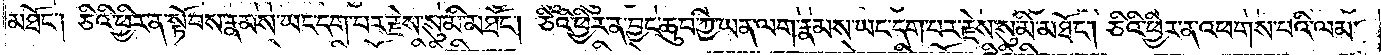མཐོང༌། ཅིའི་ཕྱིར་ན་སྟོབས་རྣམས་ཡང་དག་པར་རྗེས་སུ་མི་མཐོང༌། ཅིའི་ཕྱིར་ན་བྱང་ཆུབ་ཀྱི་ཡན་ལག་རྣམས་ཡང་དག་པར་རྗེས་སུ་མི་མཐོང༌། ཅིའི་ཕྱིར་ན་འཕགས་པའི་ལམ་
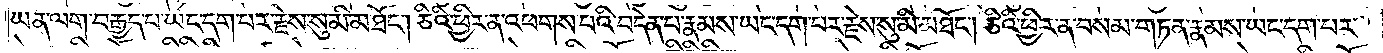ཡན་ལག་བརྒྱད་པ་ཡང་དག་པར་རྗེས་སུ་མི་མཐོང༌། ཅིའི་ཕྱིར་ན་འཕགས་པའི་བདེན་པ་རྣམས་ཡང་དག་པར་རྗེས་སུ་མི་མཐོང༌། ཅིའི་ཕྱིར་ན་བསམ་གཏན་རྣམས་ཡང་དག་པར་
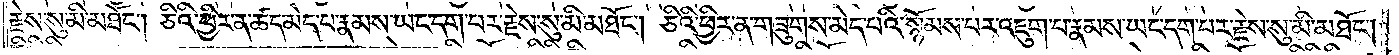རྗེས་སུ་མི་མཐོང༌། ཅིའི་ཕྱིར་ན་ཚད་མེད་པ་རྣམས་ཡང་དག་པར་རྗེས་སུ་མི་མཐོང༌། ཅིའི་ཕྱིར་ན་གཟུགས་མེད་པའི་སྙོམས་པར་འཇུག་པ་རྣམས་ཡང་དག་པར་རྗེས་སུ་མི་མཐོང༌།
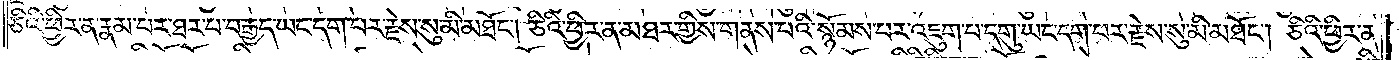ཅིའི་ཕྱིར་ན་རྣམ་པར་ཐར་པ་བརྒྱད་ཡང་དག་པར་རྗེས་སུ་མི་མཐོང༌། ཅིའི་ཕྱིར་ན་མཐར་གྱིས་གནས་པའི་སྙོམས་པར་འཇུག་པ་དགུ་ཡང་དག་པར་རྗེས་སུ་མི་མཐོང༌། ཅིའི་ཕྱིར་ན་
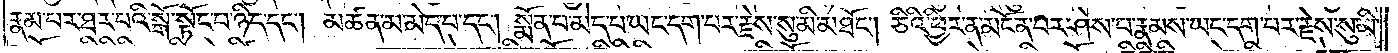རྣམ་པར་ཐར་པའི་སྒོ་སྟོང་པ་ཉིད་དང༌། མཚན་མ་མེད་པ་དང༌། སྨོན་པ་མེད་པ་ཡང་དག་པར་རྗེས་སུ་མི་མཐོང༌། ཅིའི་ཕྱིར་ན་མངོན་པར་ཤེས་པ་རྣམས་ཡང་དག་པར་རྗེས་སུ་མི་
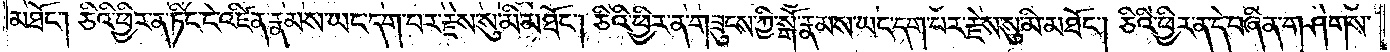མཐོང༌། ཅིའི་ཕྱིར་ན་ཏིང་ངེ་འཛིན་རྣམས་ཡང་དག་པར་རྗེས་སུ་མི་མཐོང༌། ཅིའི་ཕྱིར་ན་གཟུངས་ཀྱི་སྒོ་རྣམས་ཡང་དག་པར་རྗེས་སུ་མི་མཐོང༌། ཅིའི་ཕྱིར་ན་དེ་བཞིན་གཤེགས་
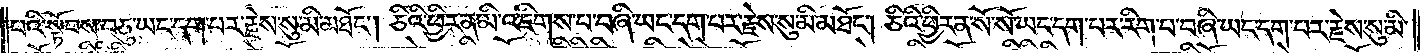པའི་སྟོབས་བཅུ་ཡང་དག་པར་རྗེས་སུ་མི་མཐོང༌། ཅིའི་ཕྱིར་ན་མི་འཇིགས་པ་བཞི་ཡང་དག་པར་རྗེས་སུ་མི་མཐོང༌། ཅིའི་ཕྱིར་ན་སོ་སོ་ཡང་དག་པར་རིག་པ་བཞི་ཡང་དག་པར་རྗེས་སུ་མི་
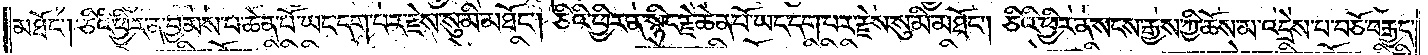མཐོང༌། ཅིའི་ཕྱིར་ན་བྱམས་པ་ཆེན་པོ་ཡང་དག་པར་རྗེས་སུ་མི་མཐོང༌། ཅིའི་ཕྱིར་ན་སྙིང་རྗེ་ཆེན་པོ་ཡང་དག་པར་རྗེས་སུ་མི་མཐོང༌། ཅིའི་ཕྱིར་ན་སངས་རྒྱས་ཀྱི་ཆོས་མ་འདྲེས་པ་བཅོ་བརྒྱད་
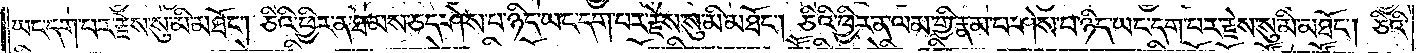ཡང་དག་པར་རྗེས་སུ་མི་མཐོང༌། ཅིའི་ཕྱིར་ན་ཐམས་ཅད་ཤེས་པ་ཉིད་ཡང་དག་པར་རྗེས་སུ་མི་མཐོང༌། ཅིའི་ཕྱིར་ན་ལམ་གྱི་རྣམ་པ་ཤེས་པ་ཉིད་ཡང་དག་པར་རྗེས་སུ་མི་མཐོང༌། ཅིའི་
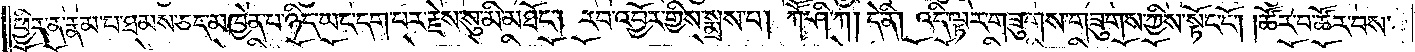ཕྱིར་ན་རྣམ་པ་ཐམས་ཅད་མཁྱེན་པ་ཉིད་ཡང་དག་པར་རྗེས་སུ་མི་མཐོང༌། རབ་འབྱོར་གྱིས་སྨྲས་པ། ཀཽ་ཤི་ཀ། དེ་ནི། འདི་ལྟར་གཟུགས་གཟུགས་ཀྱིས་སྟོང་ངོ༌། །ཚོར་བ་ཚོར་བས་
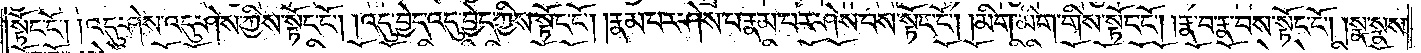སྟོང་ངོ༌། །འདུ་ཤེས་འདུ་ཤེས་ཀྱིས་སྟོང་ངོ༌། །འདུ་བྱེད་འདུ་བྱེད་ཀྱིས་སྟོང་ངོ༌། །རྣམ་པར་ཤེས་པ་རྣམ་པར་ཤེས་པས་སྟོང་ངོ༌། །མིག་མིག་གིས་སྟོང་ངོ༌། །རྣ་བ་རྣ་བས་སྟོང་ངོ༌། །སྣ་སྣས་
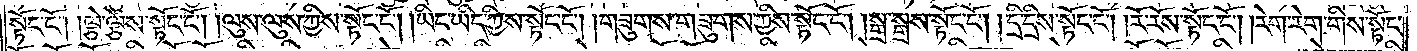སྟོང་ངོ༌། །ལྕེ་ལྕེས་སྟོང་ངོ༌། །ལུས་ལུས་ཀྱིས་སྟོང་ངོ༌། །ཡིད་ཡིད་ཀྱིས་སྟོང་ངོ༌། །གཟུགས་གཟུགས་ཀྱིས་སྟོང་ངོ༌། །སྒྲ་སྒྲས་སྟོང་ངོ༌། །དྲི་དྲིས་སྟོང་ངོ༌། །རོ་རོས་སྟོང་ངོ༌། །རེག་རེག་གིས་སྟོང་
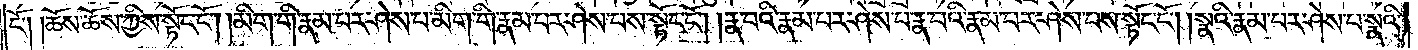ངོ༌། །ཆོས་ཆོས་ཀྱིས་སྟོང་ངོ༌། །མིག་གི་རྣམ་པར་ཤེས་པ་མིག་གི་རྣམ་པར་ཤེས་པས་སྟོང་ངོ༌། །རྣ་བའི་རྣམ་པར་ཤེས་པ་རྣ་བའི་རྣམ་པར་ཤེས་པས་སྟོང་ངོ༌། །སྣའི་རྣམ་པར་ཤེས་པ་སྣའི་
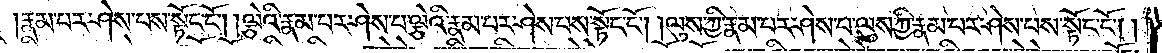རྣམ་པར་ཤེས་པས་སྟོང་ངོ༌། །ལྕེའི་རྣམ་པར་ཤེས་པ་ལྕེའི་རྣམ་པར་ཤེས་པས་སྟོང་ངོ༌། །ལུས་ཀྱི་རྣམ་པར་ཤེས་པ་ལུས་ཀྱི་རྣམ་པར་ཤེས་པས་སྟོང་ངོ༌། །
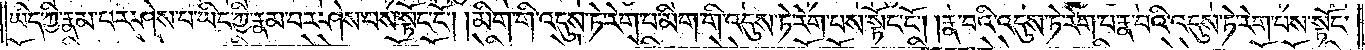ཡིད་ཀྱི་རྣམ་པར་ཤེས་པ་ཡིད་ཀྱི་རྣམ་པར་ཤེས་པས་སྟོང་ངོ༌། །མིག་གི་འདུས་ཏེ་རེག་པ་མིག་གི་འདུས་ཏེ་རེག་པས་སྟོང་ངོ༌། །རྣ་བའི་འདུས་ཏེ་རེག་པ་རྣ་བའི་འདུས་ཏེ་རེག་པས་སྟོང་
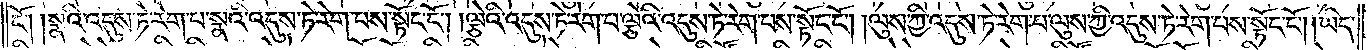ངོ༌། །སྣའི་འདུས་ཏེ་རེག་པ་སྣའི་འདུས་ཏེ་རེག་པས་སྟོང་ངོ༌། ། ལྕེའི་འདུས་ཏེ་རེག་པ་ལྕེའི་འདུས་ཏེ་རེག་པས་སྟོང་ངོ༌། །ལུས་ཀྱི་འདུས་ཏེ་རེག་པ་ལུས་ཀྱི་འདུས་ཏེ་རེག་པས་སྟོང་ངོ༌། །ཡིད་
